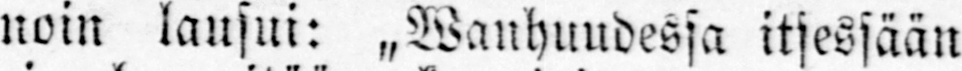noin lausui: „Wanhuudessa itsessään
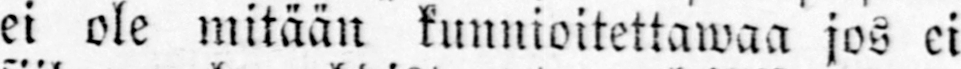ei ole mitään kunnioitettawaa jos ei
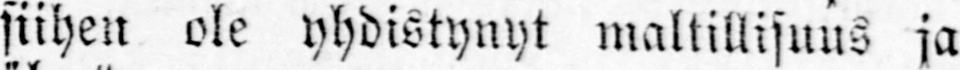siihen ole yhdistynyt maltillisuus ja
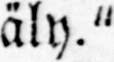äly."
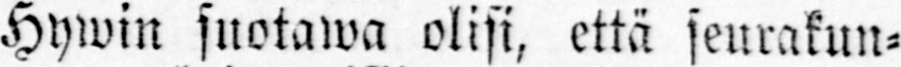Hywin suotawa olisi, että seurakun-
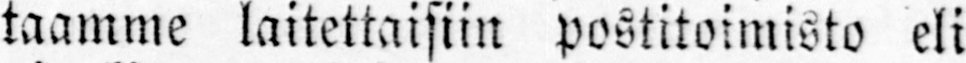taamme laitettaisiin postitoimisto eli
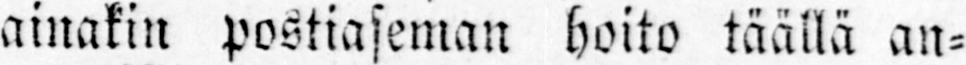ainakin postiaseman hoito täällä an-
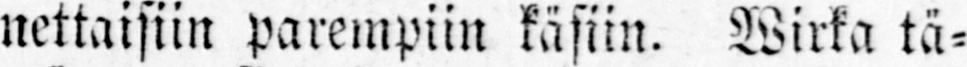nettaisiin parempiin käsiin. Wirka tä-
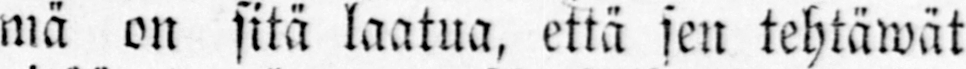mä on sitä laatua, että sen tehtäwät
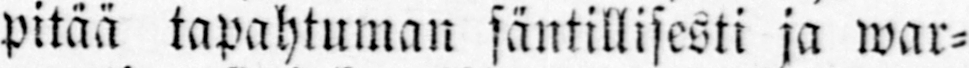pitää tapahtuman säntillisesti ja war-
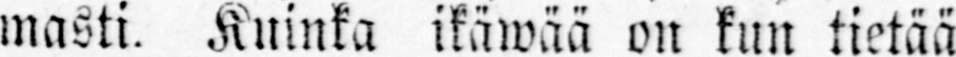masti. Kuinka ikäwää on kun tietää
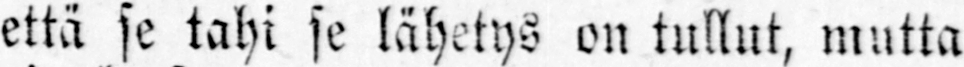että se tahi se lähetys on tullut, mutta
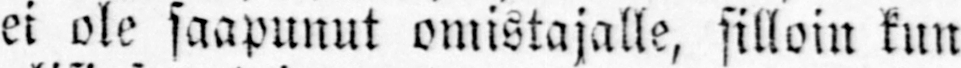ei ole saapunut omistajalle, silloin kun
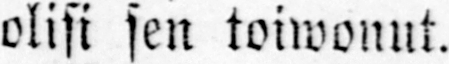olisi sen toiwonut.
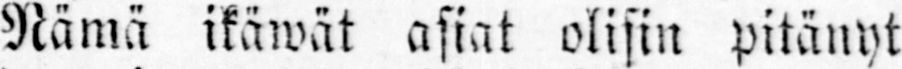Nämä ikäwät asiat olisin pitänyt
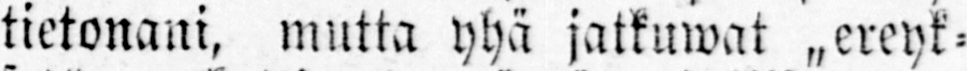tietonani, mutta yhä jatkuwat „ereyk-
